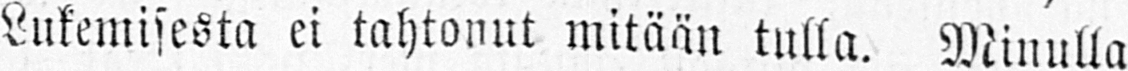Lukemisesta ei tahtonut mitään tulla. Minulla
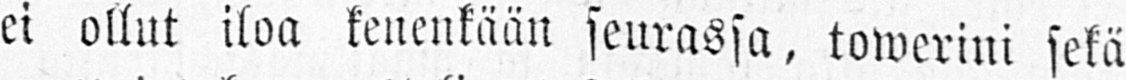ei ollut iloa kenenkään seurassa, towerini sekä
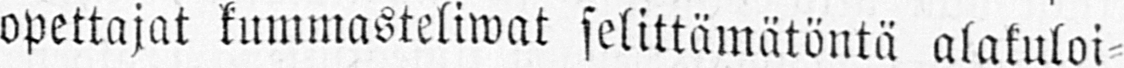opettajat kummasteliwat selittämätöntä alakuloi-
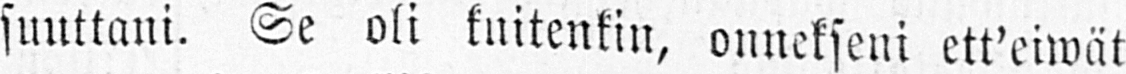suuttani. Se oli kuitenkin, onnekseni ett'eiwät
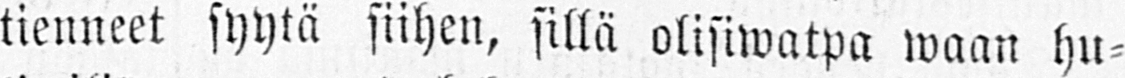tienneet syytä siihen, sillä olisiwatpa waan hu-
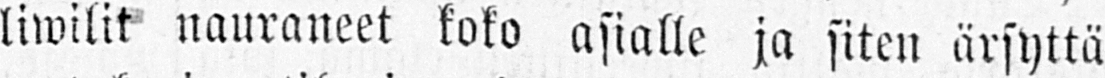liwilit nauraneet koko asialle ja siten ärsyttä-
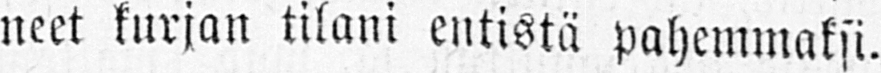neet kurjan tilani entistä pahemmaksi.
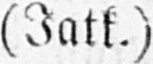(Jatk.)
